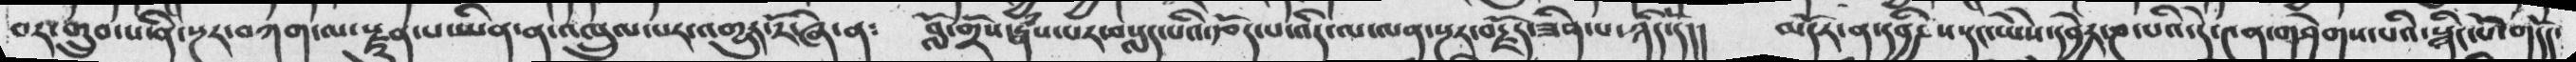བར་གྲུབ་པ་ནི་སྔར་བཀཀ་ལ་རྫུན་པ་ཡིན་ན་འཁྲུལ་པར་འགྱུར་རོ་ཞེ་ན༴  བློ་གྲིས་རྣཾས་པར་བསླད་པའི་རྩོད་པ་འདི་ལ་ལན་སྔར་བརྗོད་ཟིན་པ་ཉིད་དོ།།  མདོར་ན་དབྱེ་ས་དང་ཡེེས་དབྱེར་ཎ་པའི་དེ་༤ན་གཤེགས་པའི་སྙིང་པོ་གདོད་
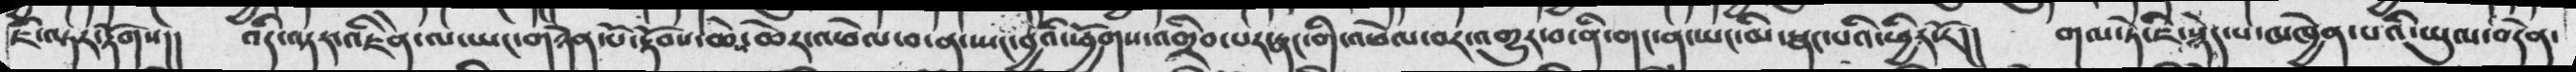ཇི་ལྟར་རྟོགས།།  འདི་ལྟར་འཇིེན་ལ་ཡང་གཉེན་པོ་རྟོབས་ཆེ་ཆེར་འཕེལ་བ་ན་སྤང་བྱའི་ཕྱོགས་འགྲིབ་པར་སྣང་གི་འཕེལ་བར་འགྱུར་བ་ནི་གང་ན་ཡང་མི་སྣང་པའི་ཕྱིར་རོ།།  གལ་ཏེ་ཇི་སྙེད་པ་མཁྱེན་པའི་ཡུལ་བདེན་
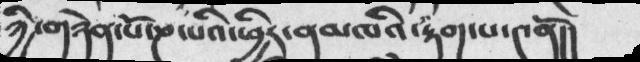ཀྱི་གཉེན་པོ་ཎ་པའི་ཕྱིར་ནམཁའི་རྟག་པ་༤ནོ།།
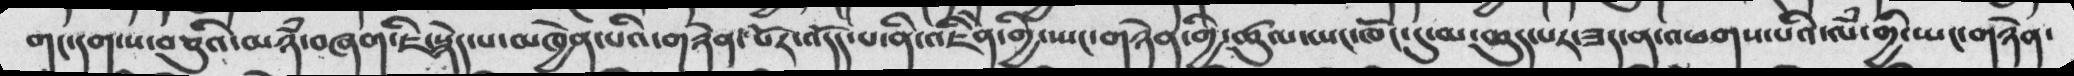གང་དག་ས་བཅུའི་མཉཾ་བཞག་ཇི་སྙེད་པ་མཁྱེན་པའི་གཉེན་པོར་འདོད་པ་ནི་འཇིེན་གྱི་ཡང་གཉེན་གྱི་ཚུལ་ཡང་ཁོང་དུ་མ་ཆུད་པར་ཟད་ན་འཕགས་པའི་ལཾ་གྱི་ཡང་གཉེན་
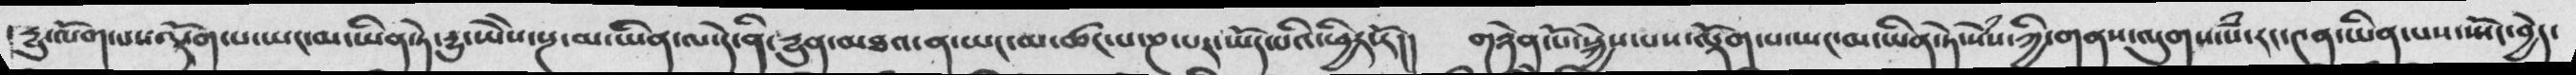། དྱུ་ལོག་པས་ལྡོག་པ་ཡང་མ་ཡིན་ཏེ་དྱུ་ཡེེས་སྔ་མ་ཡིན་ལ་དེ་ནི་དྱུན་མཐའ་ན་ཡང་མ་ཚང་པ་ཎ་པར་ཡོད་པའི་ཕྱིར་རོ།།  གཉེན་པོ་སྐྱེས་པས་ལྟོག་པ་ཡང་མ་ཡིན་ཏེ་སེཾས་ཀྱི་གནས་ལུགས་སཾ་རང་༤ནཡི་ན་པས་ཡོང་བྱེད་
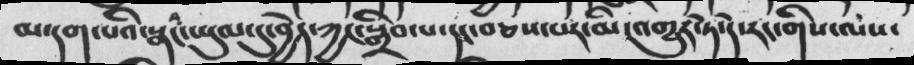མ་དག་པའི་སྣང་བ་ཡུལ་དུ་བྱེད་ཀྱང་སྒྲིབ་པ་དང་བཅས་པར་མི་འགྱུར་ཏེ་དེ་རང་གིས་ལས་
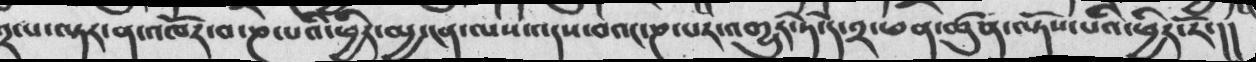༢་པ་ལྟར་ན་འཁོར་བ་ཎ་པའི་ཕྱིར་མྱ་ངན་ལས་འདས་བའང་ཎ་པར་འགྱུར་ཏེ་དེ་༢་ཕན་ཚུན་ལྟོས་པའི་ཕྱིར་རོ་།།
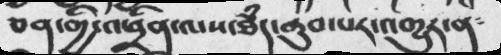ཅན་གྱི་འཕྲིན་ལས་ཐཾད་ནུབ་པར་འགྱུར་ན༴
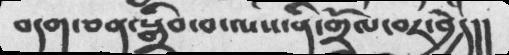བདག་ཅན་སྒྲིབ་བ་ལས་ནི་གྲོལ་བར་་བྱེད།།
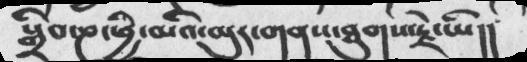སྒྲིབ་ཎ་ཕྱི་མའི་ཡུར་གནས་ཐུགས་རྗེ་ཡི།།
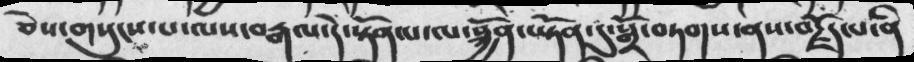ཅེས་གསུངས་པ་ལས་བརྒལ་དེ་སྟོན་པ་ལ་སྐྱོན་ཡྟོན་དུ་སྒྲོ་བཏགས་ནས་བརྗོད་པ་ནི
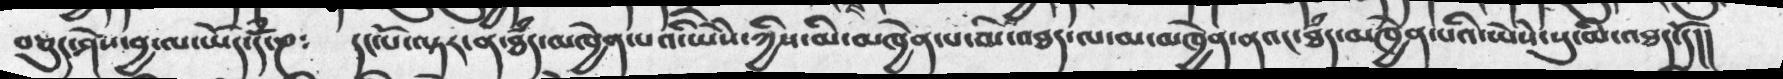བཅུད་ཤེས་བྱ་ལ་ཡོད་དཾ་ཎ༴   དང་པོ་ལྟར་ན་ཐཾད་མཁྱེན་པའི་ཡེེས་ཀྱིས་མི་མཁྱེན་པ་མི་འཐད་ལ་མ་མཁྱེན་ནའང་ཐྃད་མཁྱེན་པའི་ཡེེས་སུ་མི་འཐད་དོ།།
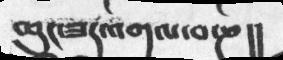ཆུང་ཟད་འགལ་བ་ཎ།།
